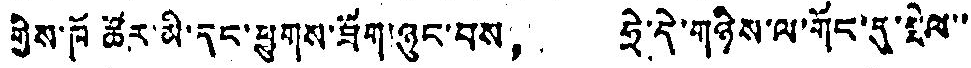གྱིས་ཁོ ཚོར་མི་དང་ཕྱུགས་ཐོག་ཉུང་བས， ཧྲེ་དེ་གཉིས་ལ་གོང་དུ་སྤེལ་་
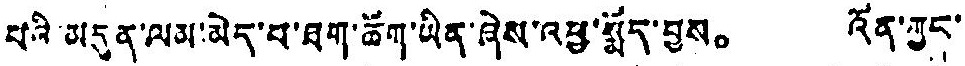པའི མདུན་ལམ་མེད་པ་ཐག་ཆོག་ཡིན་ཞེས་འཕྱ་སྨྱོད་བྱས。 འོན་ཀྱང་
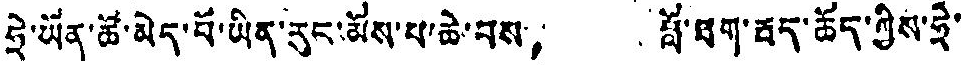ཧྲེ་ཡོན་ཚོ་མེད་པོ་ཡིན་རུང་མོས་པ་ཆེ་བས， བློ་ཐག་རྦང་ཆོད་ཀྱིས་ཧྲེ་
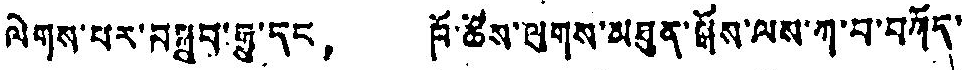ལེགས་པར་བསྒྲུབ་རྒྱུ་དང， ཁོ་ཚོས་ལུགས་མཐུན་རྒོས་ལས་ཀ་བ་བཀོད་
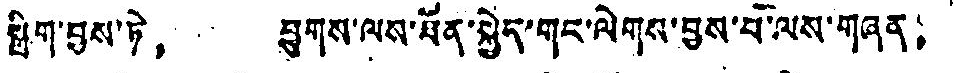སྒྲིག་བྱས་ཏེ， ཕྱུགས་ལས་ཐོན་སྐྱེད་གང་ལེགས་བྱས་པ་ལས་གཞན，
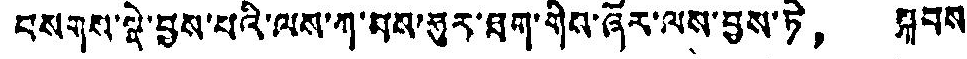བསགས་ལྡེ་བྱས་པའི་ལས་ཀ་མས་ཧུར་ཐག་གིས་ཞོར་ལས་བྱས་ཏེ， སྐབས་
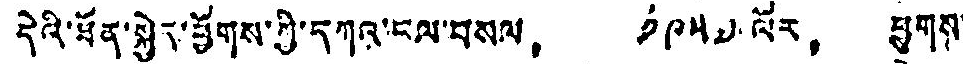དེའི་ཐོན་སྐྱེད་ཕྱོགས་ཀྱི་དཀའ་ངལ་བསལ， ༡༩༥༧ ལོར， ཕྱུགས་
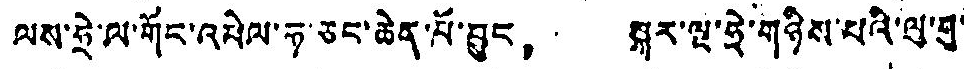ལས་ཧྲེ་ལ་གོང་འཕེལ་ཧ་ཅང་ཆེན་པོ་བྱུང， སྐར་ལྔ་ཧྲེ་གཉིས་པའི་ལུ་གུ་
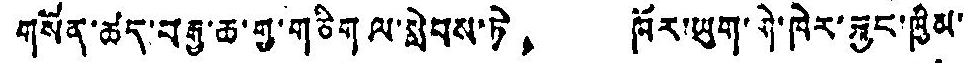གསོན་ཚད་བརྒྱ་ཆ་གྱ་གཅིག ལ་སླེབས་ཏེ， ཁོར་ཡུག་གི་ཁེར་རྐུང་ཁྱིམ་
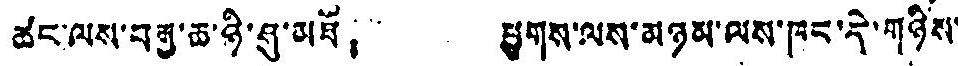ཚང་ལས་བརྒྱ་ཆ་ཉི་ཤུ་མཐོ， ཕྱུགས་ལས་མཉམ་ལས་ཁང་དེ་གཉིས་
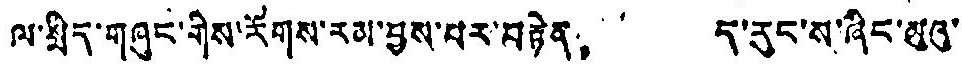ལ་སྲིད་གཞུང་གིས་རོགས་རམ་བྱས་པར་བརྟེན， ད་རུང་ས་ཞིང་མུའུ་
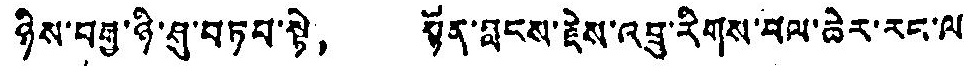ཉིས་བརྒྱ་ཉི་ཤུ་བཏབ་སྟེ， སྟོན་བླངས་རྗེས་འབྲུ་རིགས་ཕལ་ཆེར་རང་ལ་
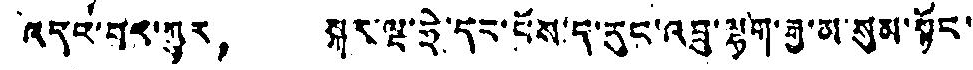འདའ་བར་ཀྱུར， སྐར་ལྔ་ཧྲེ་དང་ངོས་ད་རུང་འབྲུ་ལྷག་རྒྱ་མ་སུམ་སྟོང་
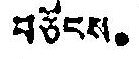བཙོངས。
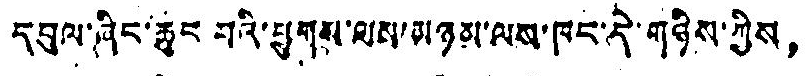དབུལ་ཞིང་ཆུང བའི་ཕྱུགས་ལས་མཉམ་ལས་ཁང་དེ་གཉིས་ཀྱིས，
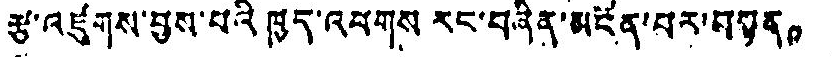རྩ་འཛུགས་བྱས་པའི ཁྱད་འབགས རང་བཞིན་མངོན་པར་བཏན。
